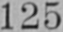125
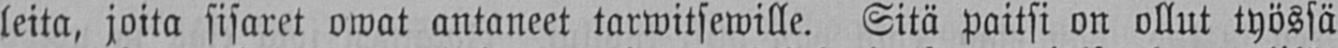leita, joita sisaret owat antaneet tarwitsewille. Sitä paitsi on ollut työssä
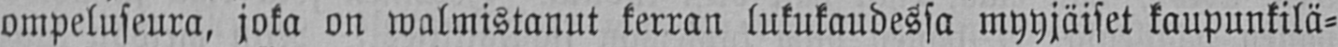ompeluseura, joka on walmistanut kerran lukukaudessa myyjäiset kaupunkilä-
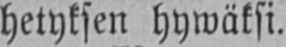hetyksen hywäksi.
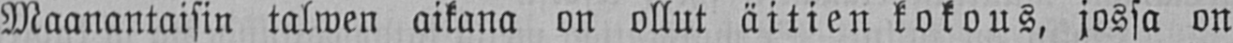Maanantaisin talwen aikana on ollut äitien kokous, jossa on
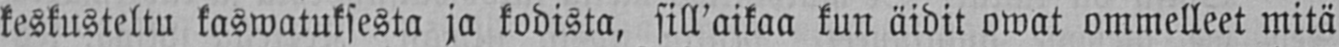keskusteltu kaswatuksesta ja kodista, sill'aikaa kun äidit owat ommelleet mitä
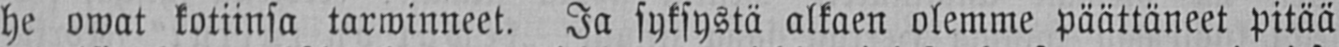he owat kotiinsa tarwinneet. Ja syksystä alkaen olemme päättäneet pitää
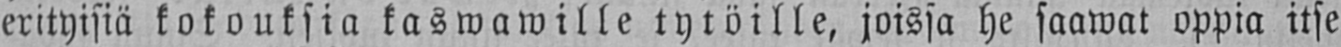erityisiä kokouksia kaswawille tytöille, joissa he saawat oppia itse
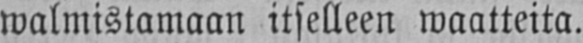walmistamaan itselleen waatteita.
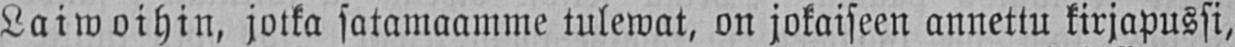Laiwoihin, jotka satamaamme tulewat, on jokaiseen annettu kirjapussi,
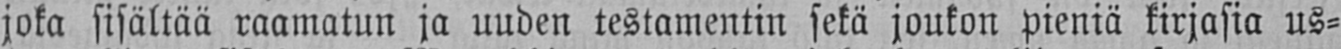joka sisältää raamatun ja uuden testamentin sekä joukon pieniä kirjasia us-
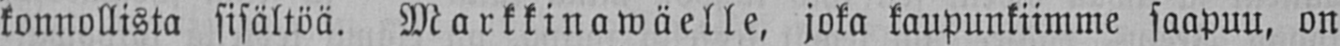konnollista sisältöä. Markkinawäelle, joka kaupunkiimme saapuu, on
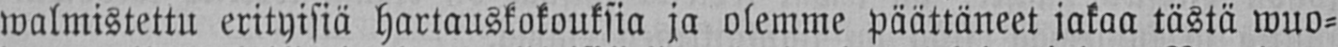walmistettu erityisiä hartauskokouksia ja olemme päättäneet jakaa tästä wuo-
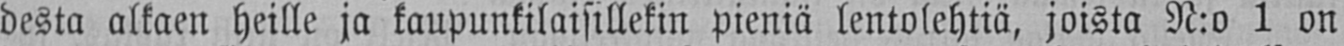desta alkaen heille ja kaupunkilaisillekin pieniä lentolehtiä, joista N:o 1 on
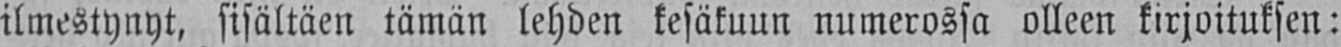ilmestynyt, sisältäen tämän lehden kesäkuun numerossa olleen kirjoituksen:
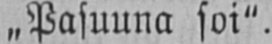„ Pasuuna soi".
